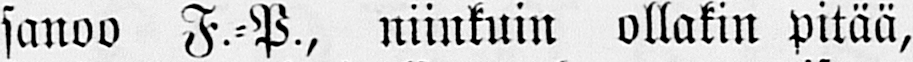sanoo F.-P., niinkuin ollakin pitää,
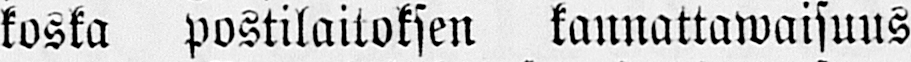koska postilaitoksen kannattawaisuus
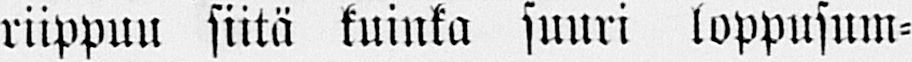riippuu siitä kuinka suuri loppusum-
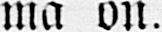ma on.
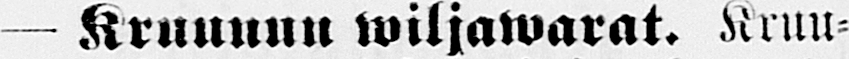— Kruunun wiljawarat. Kruu-
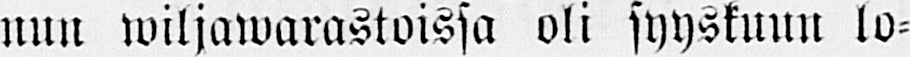nun wiljawarastoissa oli syyskuun lo-
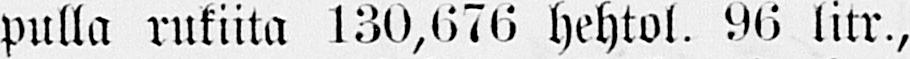pulla rukiita 130,676 hehtol. 90 litr.,
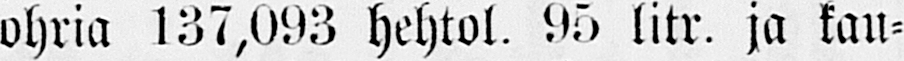ohria 137,093 hehtol. 95 litr. ja kau-
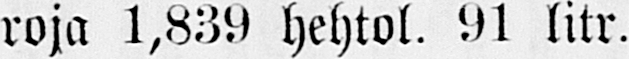roja 1,839 hehtol. 91 litr.
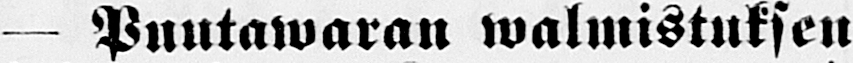— Puutawaran walmistuksen
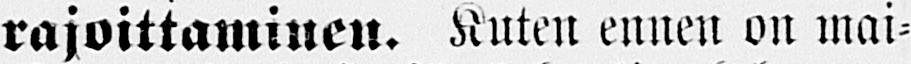rajoittaminen. Kuten ennen on mai-
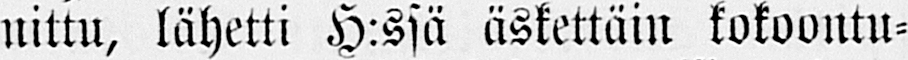nittu, lähetti H:ssä äskettäin kokoontu-
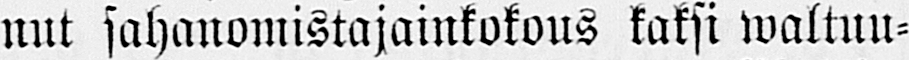nut sahanomistajainkokous kaksi waltuu-
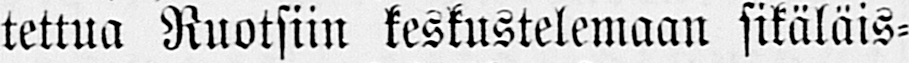tettua Ruotsiin keskustelemaan sikäläis-
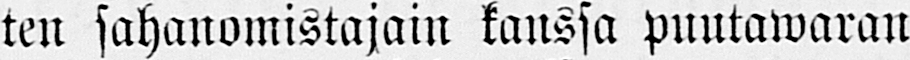ten sahanomistajain kanssa puutawaran
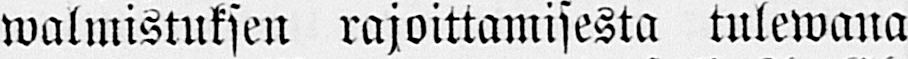walmistuksen rajoittamisesta tulewana
